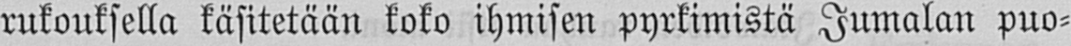rukouksella käsitetään koko ihmisen pyrkimistä Jumalan puo-
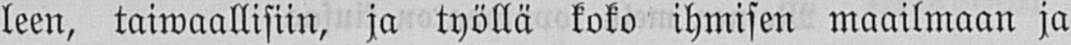leen, taiwaallisiin, ja työllä koko ihmisen maailmaan ja
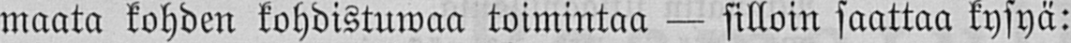maata kohden kohdistuwaa toimintaa — silloin saattaa kysyä:
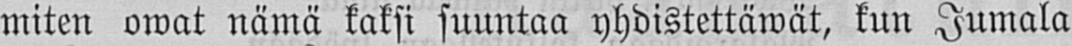miten owat nämä kaksi suuntaa yhdistettäwät, kun Jumala
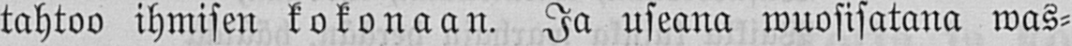tahtoo ihmisen kokonaan. Ja useana wuosisatana was-
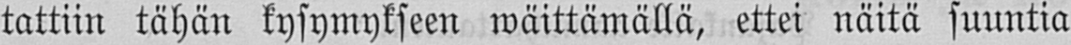tattiin tähän kysymykseen wäittämällä, ettei näitä suuntia
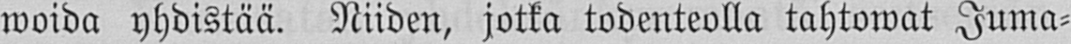woida yhdistää. Niiden, jotka todenteolla tahtowat Juma-
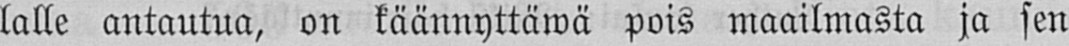lalle antautua, on käännyttäwä pois maailmasta ja sen
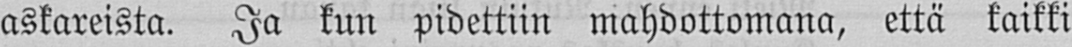askareista. Ja kun pidettiin mahdottomana, että kaikki
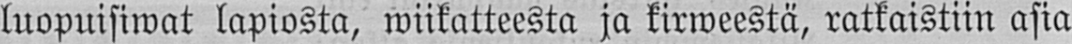luopuisiwat lapiosta, wiikatteesta ja kirweestä, ratkaistiin asia
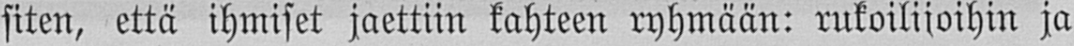siten, että ihmiset jaettiin kahteen ryhmään: rukoilijoihin ja
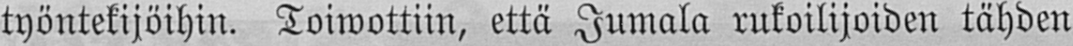työntekijöihin. Toiwottiin, että Jumala rukoilijoiden tähden
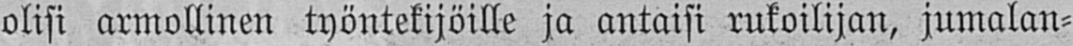olisi armollinen työntekijöille ja antaisi rukoilijan, jumalan-
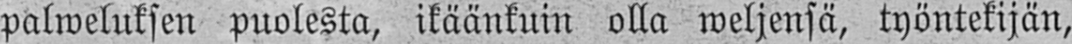palweluksen puolesta, ikäänkuin olla weljensä, työntekijän,
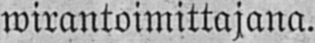wirantoimittajana.
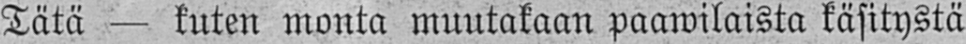Tätä - kuten monta muutakaan paawilaista käsitystä
